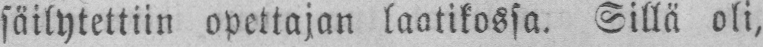säilytettiin opettajan laatikossa. Sillä oli,
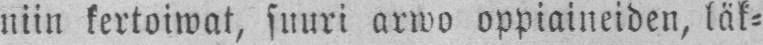niin kertoiwat, suuri arwo oppiaineiden, läk-
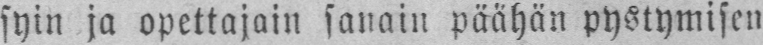syin ja opettajain sanain päähän pystymisen
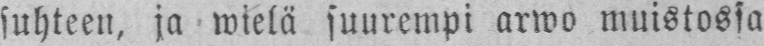suhteen, ja wielä suurempi arwo muistossa
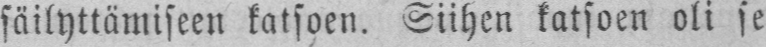säilyttämiseen katsoen. Siihen katsoen oli se
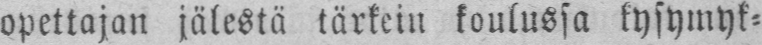opettajan jälestä tärkein koulussa kysymyk-
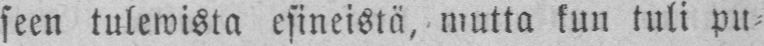seen tulewista esineistä, mutta kun tuli pu-
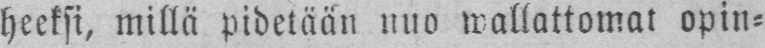heeksi, millä pidetään nuo wallattomat opin-
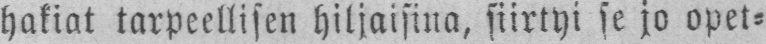hakiat tarpeellisen hiljaisina, siirtyi se jo opet-
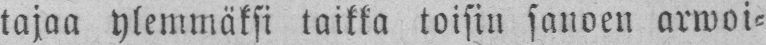tajaa ylemmäksi laikka toisin sanoen arwoi-
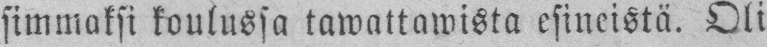simmaksi koulussa tawattawista esineistä. Oli
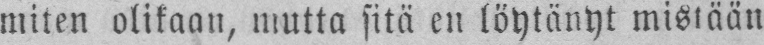miten olikaan, mutta sitä en löytänyt mistään
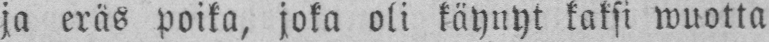ja eräs poika, joka oli käynyt kaksi wuotta
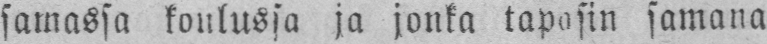samassa koulussa ja jonka tapasin samana
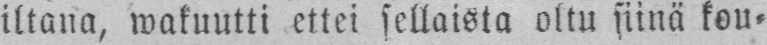iltana, wakuutti ettei sellaista oltu siinä kou-
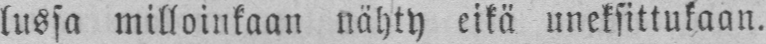lussa milloinkaan nähty eikä uneksittukaan.
